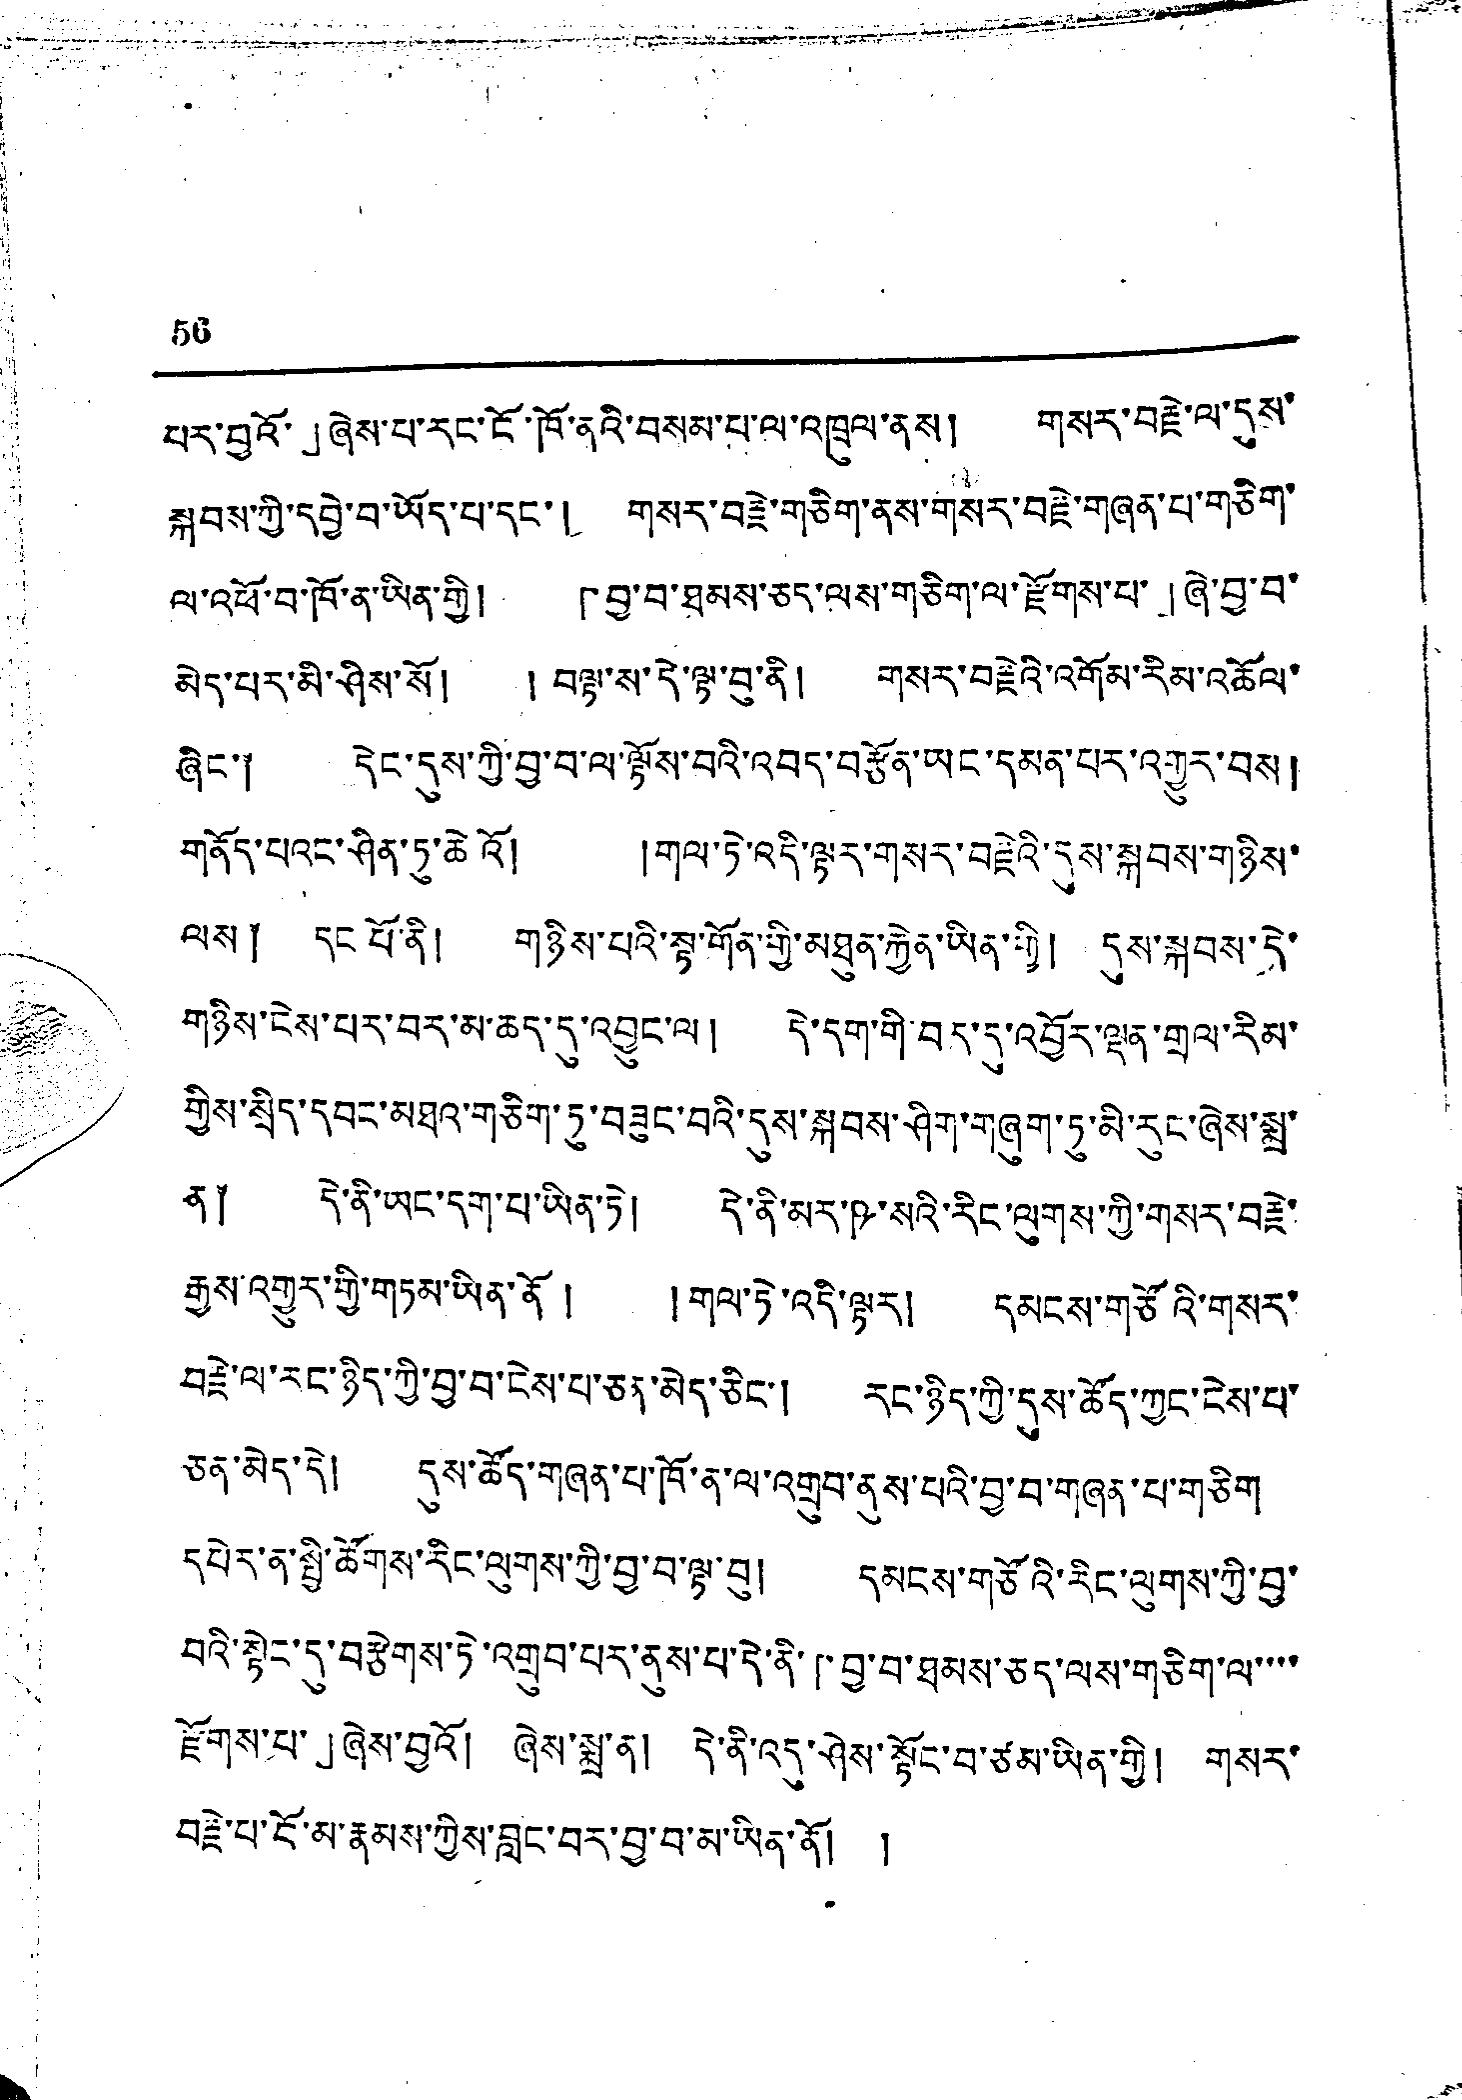56
པར་བྱའོ་」ཞེས་པ་རང་ངོ་ཁོ་ནའི་བསམ་པ་ལ་འཁྲུལ་ནས། གསར་བརྗེ་ལ་དུས་
སྐབས་ཀྱི་དབྱེ་བ་ཡོད་པ་དང་། གསར་བརྗེ་གཅིག་ནས་གསར་བརྗེ་གཞན་པ་གཅིག་
ལ་འཕོ་བ་ཁོ་ན་ཡིན་གྱི། 「བྱ་བ་ཐམས་ཅད་ལུས་གཅིག་ལ་རྫོགས་པ་」ཞེ་བྱ་བ་
མེད་པར་མི་ཤིས་སོ། ། བལྟ་ས་དེ་ལྟ་བུ་ནི། གསར་བརྗེའི་འགོམ་རིམ་འཆོལ་
ཞིང་། དེང་དུས་ཀྱི་བྱ་བ་ལ་ལྟོས་བའི་འབད་བརྩོན་ཡང་དམན་པར་འགྱུར་བས།
གནོད་པའང་ཤིན་ཏུ་ཆེའོ། །གལ་ཏེ་འདི་ལྟར་གསར་བརྗེའི་དུས་སྐབས་གཉིས་
ལས ༐ དང་པོ་ནི། གཉིས་པའི་སྟ་གོན་གྱི་མཐུན་རྐྱེན་ཡིན་གྱི། དུས་སྐབས་དེ་
གཉིས་ངེས་པར་བར་མ་ཆད་དུ་འབྱུང་ལ། དེ་དག་གི་བར་དུ་འབྱོར་ལྡན་གྲལ་རིམ་
གྱིས་སྲིད་དབང་མཐའ་གཅིག་ཏུ་བཟུང་བའི་དུས་སྐབས་ཤིག་གཞུག་ཏུ་མི་རུང་ཞེས་སྨྲ་
ན ༐ དེ་ནི་ཡང་དག་པ་ཡིན་ཏེ། དེ་ནི་མར་ཥ་སའི་རིང་ལུགས་ཀྱི་གསར་བརྗེ་
རྒྱས་འགྱུར་གྱི་གཏམ་ཡིན་ནོ ། །གལ་ཏེ་འདི་ལྟར། དམངས་གཙོའི་གསར་
བརྗེ་ལ་རང་ཉིད་ཀྱི་བྱ་བ་ངེས་པ་ཅན་མེད་ཅིང་། རང་ཉིད་ཀྱི་དུས་ཚོད་ཀྱང་ངེས་པ་
ཅན་མེད་དེ། དུས་ཚོད་གཞན་པ་ཁོ་ན་ལ་འགྲུབ་ནུས་པའི་བྱ་བ་གཞན་པ་གཅིག་
དཔེར་ན་སྤྱི་ཚོགས་རིང་ལུགས་ཀྱི་བྱ་བ་ལྟ་བུ། དམངས་གཙོའི་རིང་ལུགས་ཀྱི་བྱ་
བའི་སྟེང་དུ་བརྩེགས་ཏེ་འགྲུབ་པར་ནུས་པ་དེ་ནི་「བྱ་བ་ཐམས་ཅད་ལས་གཅིག་ལ་་་་
རྩོགས་པ་」ཞེས་བྱའོ། ཞེས་སྨྲ་ན། དེ་ནི་འདུ་ཤེས་སྟོང་བ་ཙམ་ཡིན་གྱི། གསར་
བརྗེ་པ་ངོ་མ་རྣམས་ཀྱིས་བླང་བར་བྱ་བ་མ་ཡིན་ནོ། །
